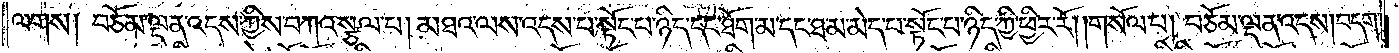ལགས། བཅོམ་ལྡན་འདས་ཀྱིས་བཀའ་སྩལ་པ། མཐའ་ལས་འདས་པ་སྟོང་པ་ཉིད་དང་ཐོག་མ་དང་ཐ་མ་མེད་པ་སྟོང་པ་ཉིད་ཀྱི་ཕྱིར་རོ། །གསོལ་པ། བཅོམ་ལྡན་འདས། བདག་
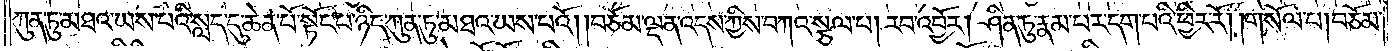ཀུན་ཏུ་མཐའ་ཡས་པའི་སླད་དུ་ཆེན་པོ་སྟོང་པ་ཉིད་ཀུན་ཏུ་མཐའ་ཡས་པའོ། །བཅོམ་ལྡན་འདས་ཀྱིས་བཀའ་སྩལ་པ། རབ་འབྱོར། ཤིན་ཏུ་རྣམ་པར་དག་པའི་ཕྱིར་རོ། །གསོལ་པ། བཅོམ་
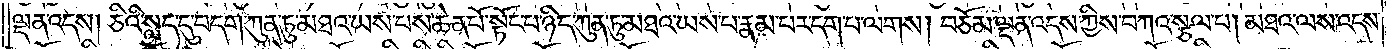ལྡན་འདས། ཅིའི་སླད་དུ་བདག་ཀུན་ཏུ་མཐའ་ཡས་པས་ཆེན་པོ་སྟོང་པ་ཉིད་ཀུན་ཏུ་མཐའ་ཡས་པ་རྣམ་པར་དག་པ་ལགས། བཅོམ་ལྡན་འདས་ཀྱིས་བཀའ་སྩལ་པ། མཐའ་ལས་འདས་
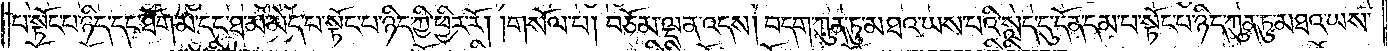པ་སྟོང་པ་ཉིད་དང་ཐོག་མ་དང་ཐ་མ་མེད་པ་སྟོང་པ་ཉིད་ཀྱི་ཕྱིར་རོ། །གསོལ་པ། བཅོམ་ལྡན་འདས། བདག་ཀུན་ཏུ་མཐའ་ཡས་པའི་སླད་དུ་དོན་དམ་པ་སྟོང་པ་ཉིད་ཀུན་ཏུ་མཐའ་ཡས་
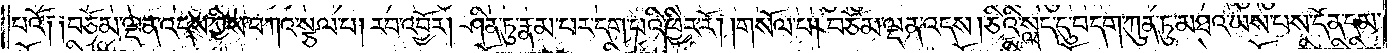པའོ༑ ༑བཅོམ་ལྡན་འདས་ཀྱིས་བཀའ་སྩལ་པ། རབ་འབྱོར། ཤིན་ཏུ་རྣམ་པར་དག་པའི་ཕྱིར་རོ། །གསོལ་པ། བཅོམ་ལྡན་འདས། ཅིའི་སླད་དུ་བདག་ཀུན་ཏུ་མཐའ་ཡས་པས་དོན་དམ་
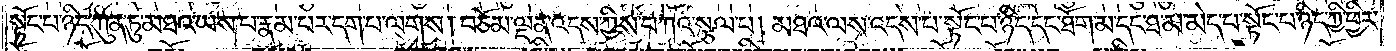སྟོང་པ་ཉིད་ཀུན་ཏུ་མཐའ་ཡས་པ་རྣམ་པར་དག་པ་ལགས། བཅོམ་ལྡན་འདས་ཀྱིས་བཀའ་སྩལ་པ། མཐའ་ལས་འདས་པ་སྟོང་པ་ཉིད་དང་ཐོག་མ་དང་ཐ་མ་མེད་པ་སྟོང་པ་ཉིད་ཀྱི་ཕྱིར་
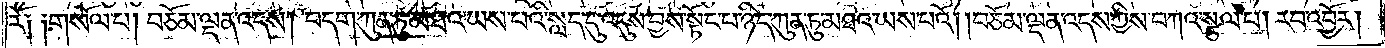རོ༑ ༑གསོལ་པ། བཅོམ་ལྡན་འདས། བདག་ཀུན་ཏུ་མཐའ་ཡས་པའི་སླད་དུ་འདུས་བྱས་སྟོང་པ་ཉིད་ཀུན་ཏུ་མཐའ་ཡས་པའོ། །བཅོམ་ལྡན་འདས་ཀྱིས་བཀའ་སྩལ་པ། རབ་འབྱོར།
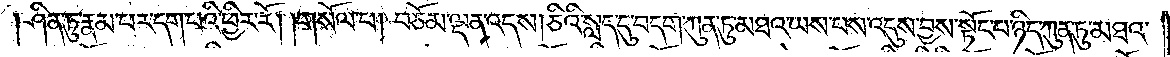ཤིན་ཏུ་རྣམ་པར་དག་པའི་ཕྱིར་རོ། །གསོལ་པ། བཅོམ་ལྡན་འདས། ཅིའི་སླད་དུ་བདག་ཀུན་ཏུ་མཐའ་ཡས་པས་འདུས་བྱས་སྟོང་པ་ཉིད་ཀུན་ཏུ་མཐའ་
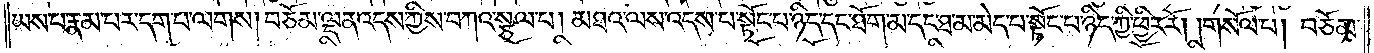ཡས་པ་རྣམ་པར་དག་པ་ལགས། བཅོམ་ལྡན་འདས་ཀྱིས་བཀའ་སྩལ་པ། མཐའ་ལས་འདས་པ་སྟོང་པ་ཉིད་དང་ཐོག་མ་དང་ཐ་མ་མེད་པ་སྟོང་པ་ཉིད་ཀྱི་ཕྱིར་རོ། །གསོལ་པ། བཅོམ་
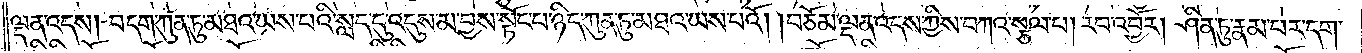ལྡན་འདས། བདག་ཀུན་ཏུ་མཐའ་ཡས་པའི་སླད་དུ་འདུས་མ་བྱས་སྟོང་པ་ཉིད་ཀུན་ཏུ་མཐའ་ཡས་པའོ། །བཅོམ་ལྡན་འདས་ཀྱིས་བཀའ་སྩལ་པ། རབ་འབྱོར། ཤིན་ཏུ་རྣམ་པར་དག་
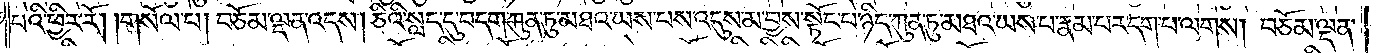པའི་ཕྱིར་རོ། །གསོལ་པ། བཅོམ་ལྡན་འདས། ཅིའི་སླད་དུ་བདག་ཀུན་ཏུ་མཐའ་ཡས་པས་འདུས་མ་བྱས་སྟོང་པ་ཉིད་ཀུན་ཏུ་མཐའ་ཡས་པ་རྣམ་པར་དག་པ་ལགས། བཅོམ་ལྡན་
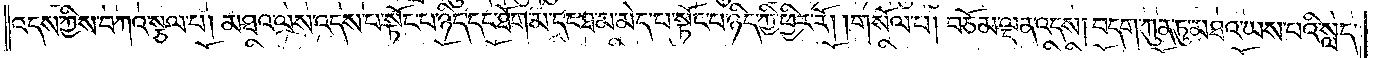འདས་ཀྱིས་བཀའ་སྩལ་པ། མཐའ་ལས་འདས་པ་སྟོང་པ་ཉིད་དང་ཐོག་མ་དང་ཐ་མ་མེད་པ་སྟོང་པ་ཉིད་ཀྱི་ཕྱིར་རོ། །གསོལ་པ། བཅོམ་ལྡན་འདས། བདག་ཀུན་ཏུ་མཐའ་ཡས་པའི་སླད་
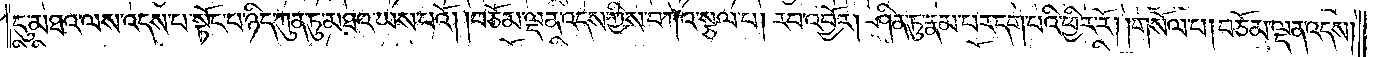དུ་མཐའ་ལས་འདས་པ་སྟོང་པ་ཉིད་ཀུན་ཏུ་མཐའ་ཡས་པའོ། །བཅོམ་ལྡན་འདས་ཀྱིས་བཀའ་སྩལ་པ། རབ་འབྱོར། ཤིན་ཏུ་རྣམ་པར་དག་པའི་ཕྱིར་རོ། །གསོལ་པ། བཅོམ་ལྡན་འདས།
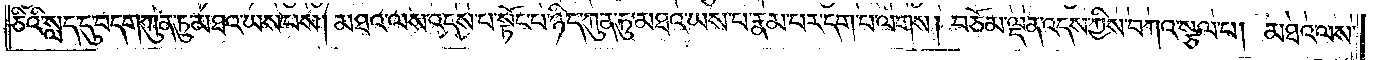ཅིའི་སླད་དུ་བདག་ཀུན་ཏུ་མཐའ་ཡས་པས། མཐའ་ལས་འདས་པ་སྟོང་པ་ཉིད་ཀུན་ཏུ་མཐའ་ཡས་པ་རྣམ་པར་དག་པ་ལགས། བཅོམ་ལྡན་འདས་ཀྱིས་བཀའ་སྩལ་པ། མཐའ་ལས་
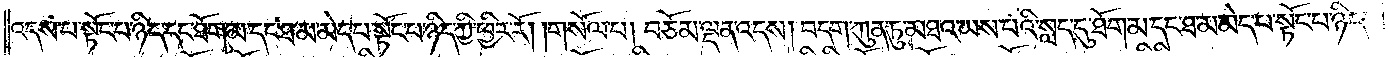འདས་པ་སྟོང་པ་ཉིད་དང་ཐོག་མ་དང་ཐ་མ་མེད་པ་སྟོང་པ་ཉིད་ཀྱི་ཕྱིར་རོ། །གསོལ་པ། བཅོམ་ལྡན་འདས། བདག་ཀུན་ཏུ་མཐའ་ཡས་པའི་སླད་དུ་ཐོག་མ་དང་ཐ་མ་མེད་པ་སྟོང་པ་ཉིད་
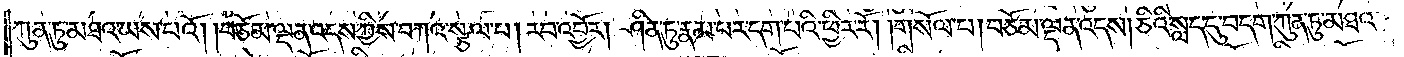ཀུན་ཏུ་མཐའ་ཡས་པའོ། །བཅོམ་ལྡན་འདས་ཀྱིས་བཀའ་སྩལ་པ། རབ་འབྱོར། ཤིན་ཏུ་རྣམ་པར་དག་པའི་ཕྱིར་རོ། །གསོལ་པ། བཅོམ་ལྡན་འདས། ཅིའི་སླད་དུ་བདག་ཀུན་ཏུ་མཐའ་
